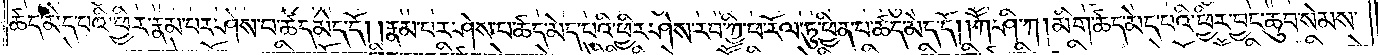ཚད་མེད་པའི་ཕྱིར་རྣམ་པར་ཤེས་པ་ཚད་མེད་དོ། རྣམ་པར་ཤེས་པ་ཚད་མེད་པའི་ཕྱིར་ཤེས་རབ་ཀྱི་ཕ་རོལ་ཏུ་ཕྱིན་པ་ཚད་མེད་དོ། །ཀཽ་ཤི་ཀ། མིག་ཚད་མེད་པའི་ཕྱིར་བྱང་ཆུབ་སེམས་
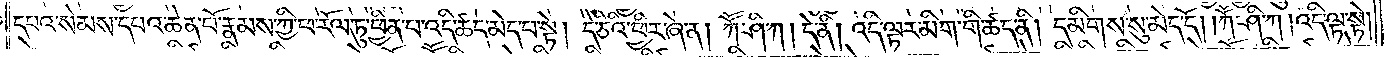དཔའ་སེམས་དཔའ་ཆེན་པོ་རྣམས་ཀྱི་ཕ་རོལ་ཏུ་ཕྱིན་པ་འདི་ཚད་མེད་པ་སྟེ། དེ་ཅིའི་ཕྱིར་ཞེ་ན། ཀཽ་ཤི་ཀ །དེ་ནི། འདི་ལྟར་མིག་གི་ཚད་ནི། དམིགས་སུ་མེད་དོ། །ཀཽ་ཤི་ཀ །འདི་ལྟ་སྟེ།
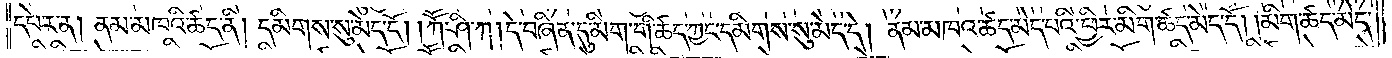དཔེར་ན། ནམ་མཁའ་ཚད་ནི། དམིགས་སུ་མེད་དོ། །ཀཽ་ཤི་ཀ། དེ་བཞིན་དུ་མིག་གི་ཚད་ཀྱང་དམིགས་སུ་མེད་དེ། ནམ་མཁའ་ཚད་མེད་པའི་ཕྱིར་མིག་ཚད་མེད་དོ། །མིག་ཚད་མེད་
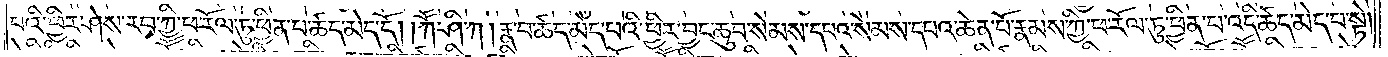པའི་ཕྱིར་ཤེས་རབ་ཀྱི་ཕ་རོལ་ཏུ་ཕྱིན་པ་ཚད་མེད་དོ། །ཀཽ་ཤི་ཀ །རྣ་བ་ཚད་མེད་པའི་ཕྱིར་བྱང་ཆུབ་སེམས་དཔའ་སེམས་དཔའ་ཆེན་པོ་རྣམས་ཀྱི་ཕ་རོལ་ཏུ་ཕྱིན་པ་འདི་ཚད་མེད་པ་སྟེ།
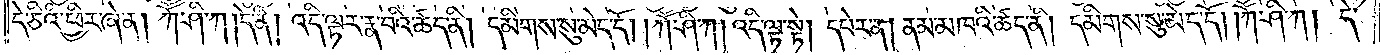དེ་ཅིའི་ཕྱིར་ཞེ་ན། ཀཽ་ཤི་ཀ། དེ་ནི། འདི་ལྟར་རྣ་བའི་ཚད་ནི། དམིགས་སུ་མེད་དོ། །ཀཽ་ཤི་ཀ། འདི་ལྟ་སྟེ། དཔེར་ན། ནམ་མཁའི་ཚད་ནི། དམིགས་སུ་མེད་དོ། །ཀཽ་ཤི་ཀ། དེ་
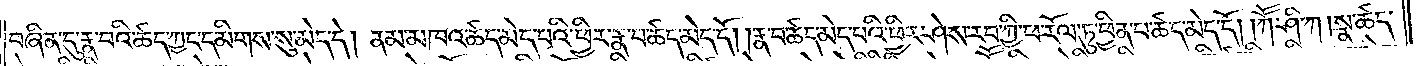བཞིན་དུ་རྣ་བའི་ཚད་ཀྱང་དམིགས་སུ་མེད་དེ། ནམ་མཁའ་ཚད་མེད་པའི་ཕྱིར་རྣ་བ་ཚད་མེད་དོ། །རྣ་བ་ཚད་མེད་པའི་ཕྱིར་ཤེས་རབ་ཀྱི་ཕ་རོལ་ཏུ་ཕྱིན་པ་ཚད་མེད་དོ། །ཀཽ་ཤི་ཀ །སྣ་ཚད་
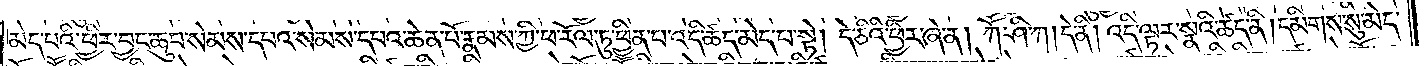མེད་པའི་ཕྱིར་བྱང་ཆུབ་སེམས་དཔའ་སེམས་དཔའ་ཆེན་པོ་རྣམས་ཀྱི་ཕ་རོལ་ཏུ་ཕྱིན་པ་འདི་ཚད་མེད་པ་སྟེ། དེ་ཅིའི་ཕྱིར་ཞེ་ན། ཀཽ་ཤི་ཀ། དེ་ནི། འདི་ལྟར་སྣའི་ཚད་ནི་།དམིགས་སུ་མེད་
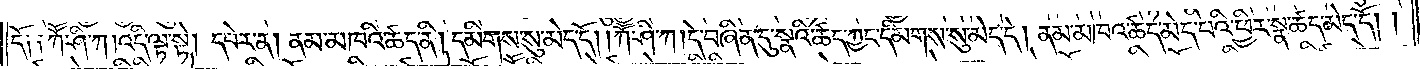དོ༑ ༑ཀཽ་ཤི་ཀ། འདི་ལྟ་སྟེ། དཔེར་ན། ནམ་མཁའི་ཚད་ནི། དམིགས་སུ་མེད་དོ། །ཀཽ་ཤི་ཀ །དེ་བཞིན་དུ་སྣའི་ཚད་ཀྱང་དམིགས་སུ་མེད་དེ། ནམ་མཁའ་ཚད་མེད་པའི་ཕྱིར་སྣ་ཚད་མེད་དོ། །
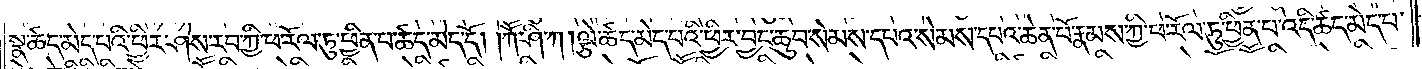སྣ་ཚད་མེད་པའི་ཕྱིར་ཤེས་རབ་ཀྱི་ཕ་རོལ་ཏུ་ཕྱིན་པ་ཚད་མེད་དོ། །ཀཽ་ཤི་ཀ། ལྕེ་ཚད་མེད་པའི་ཕྱིར་བྱང་ཆུབ་སེམས་དཔའ་སེམས་དཔའ་ཆེན་པོ་རྣམས་ཀྱི་ཕ་རོལ་ཏུ་ཕྱིན་པ་འདི་ཚད་མེད་པ་
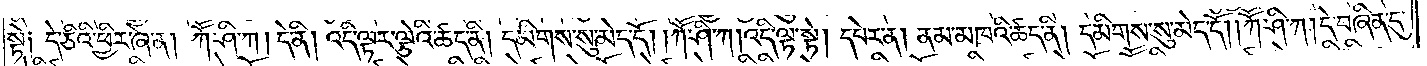སྟེ༑ དེ་ཅིའི་ཕྱིར་ཞེ་ན། ཀཽ་ཤི་ཀ། དེ་ནི། འདི་ལྟར་ལྕེའི་ཚད་ནི། དམིགས་སུ་མེད་དོ། །ཀཽ་ཤི་ཀ། འདི་ལྟ་སྟེ། དཔེར་ན། ནམ་མཁའི་ཚད་ནི། དམིགས་སུ་མེད་དོ། །ཀཽ་ཤི་ཀ། དེ་བཞིན་དུ་
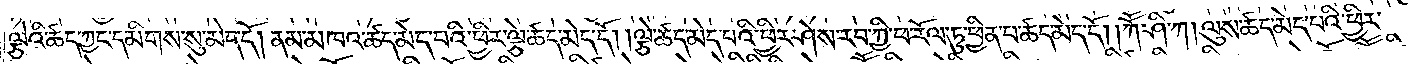ལྕེའི་ཚད་ཀྱང་དམིགས་སུ་མེད་དོ། ནམ་མཁའ་ཚད་མེད་པའི་ཕྱིར་ལྕེ་ཚད་མེད་དོ། །ལྕེ་ཚད་མེད་པའི་ཕྱིར་ཤེས་རབ་ཀྱི་ཕ་རོལ་ཏུ་ཕྱིན་པ་ཚད་མེད་དོ། །ཀཽ་ཤི་ཀ། ལུས་ཚད་མེད་པའི་ཕྱིར་
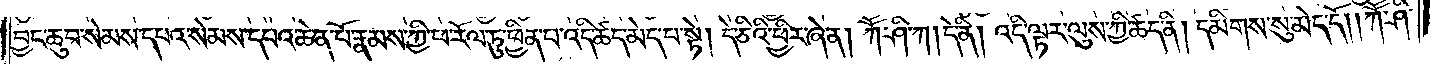བྱང་ཆུབ་སེམས་དཔའ་སེམས་དཔའ་ཆེན་པོ་རྣམས་ཀྱི་ཕ་རོལ་ཏུ་ཕྱིན་པ་འདི་ཚད་མེད་པ་སྟེ། དེ་ཅིའི་ཕྱིར་ཞེ་ན། ཀཽ་ཤི་ཀ། དེ་ནི། འདི་ལྟར་ལུས་ཀྱི་ཚད་ནི། དམིགས་སུ་མེད་དོ། །ཀཽ་ཤི་
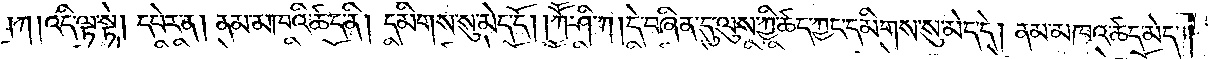ཀ། འདི་ལྟ་སྟེ། དཔེར་ན། ནམ་མཁའི་ཚད་ནི། དམིགས་སུ་མེད་དོ། །ཀཽ་ཤི་ཀ །དེ་བཞིན་དུ་ལུས་ཀྱི་ཚད་ཀྱང་དམིགས་སུ་མེ་དེ། ནམ་མཁའ་ཚད་མེད་
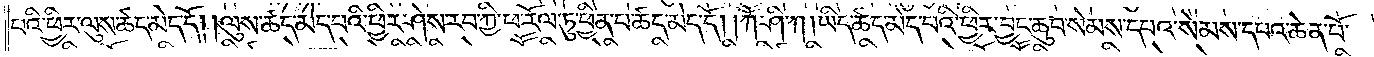པའི་ཕྱིར་ལུས་ཚད་མེད་དོ། །ལུས་ཚད་མེད་པའི་ཕྱིར་ཤེས་རབ་ཀྱི་ཕ་རོལ་ཏུ་ཕྱིན་པ་ཚད་མེད་དོ། །ཀཽ་ཤི་ཀ། ཡིད་ཚད་མེད་པའི་ཕྱིར་བྱང་ཆུབ་སེམས་དཔའ་སེམས་དཔའ་ཆེན་པོ་
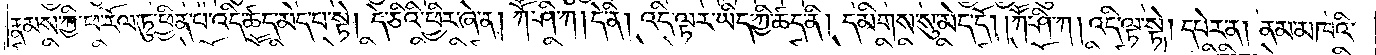རྣམས་ཀྱི་ཕ་རོལ་ཏུ་ཕྱིན་པ་འདི་ཚད་མེད་པ་སྟེ། དེ་ཅིའི་ཕྱིར་ཞེ་ན། ཀཽ་ཤི་ཀ། དེ་ནི། འདི་ལྟར་ཡིད་ཀྱི་ཚད་ནི། དམིགས་སུ་མེད་དོ། །ཀཽ་ཤི་ཀ། འདི་ལྟ་སྟེ། དཔེར་ན། ནམ་མཁའི་
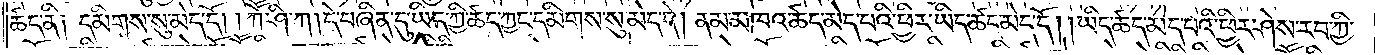ཚད་ནི། དམིགས་སུ་མེད་དོ། །ཀཽ་ཤི་ཀ། དེ་བཞིན་དུ་ཡིད་ཀྱི་ཚད་ཀྱང་དམིགས་སུ་མེད་དེ། ནམ་མཁའ་ཚད་མེད་པའི་ཕྱིར་ཡིད་ཚད་མེད་དོ། །ཡིད་ཚད་མེད་པའི་ཕྱིར་ཤེས་རབ་ཀྱི་
